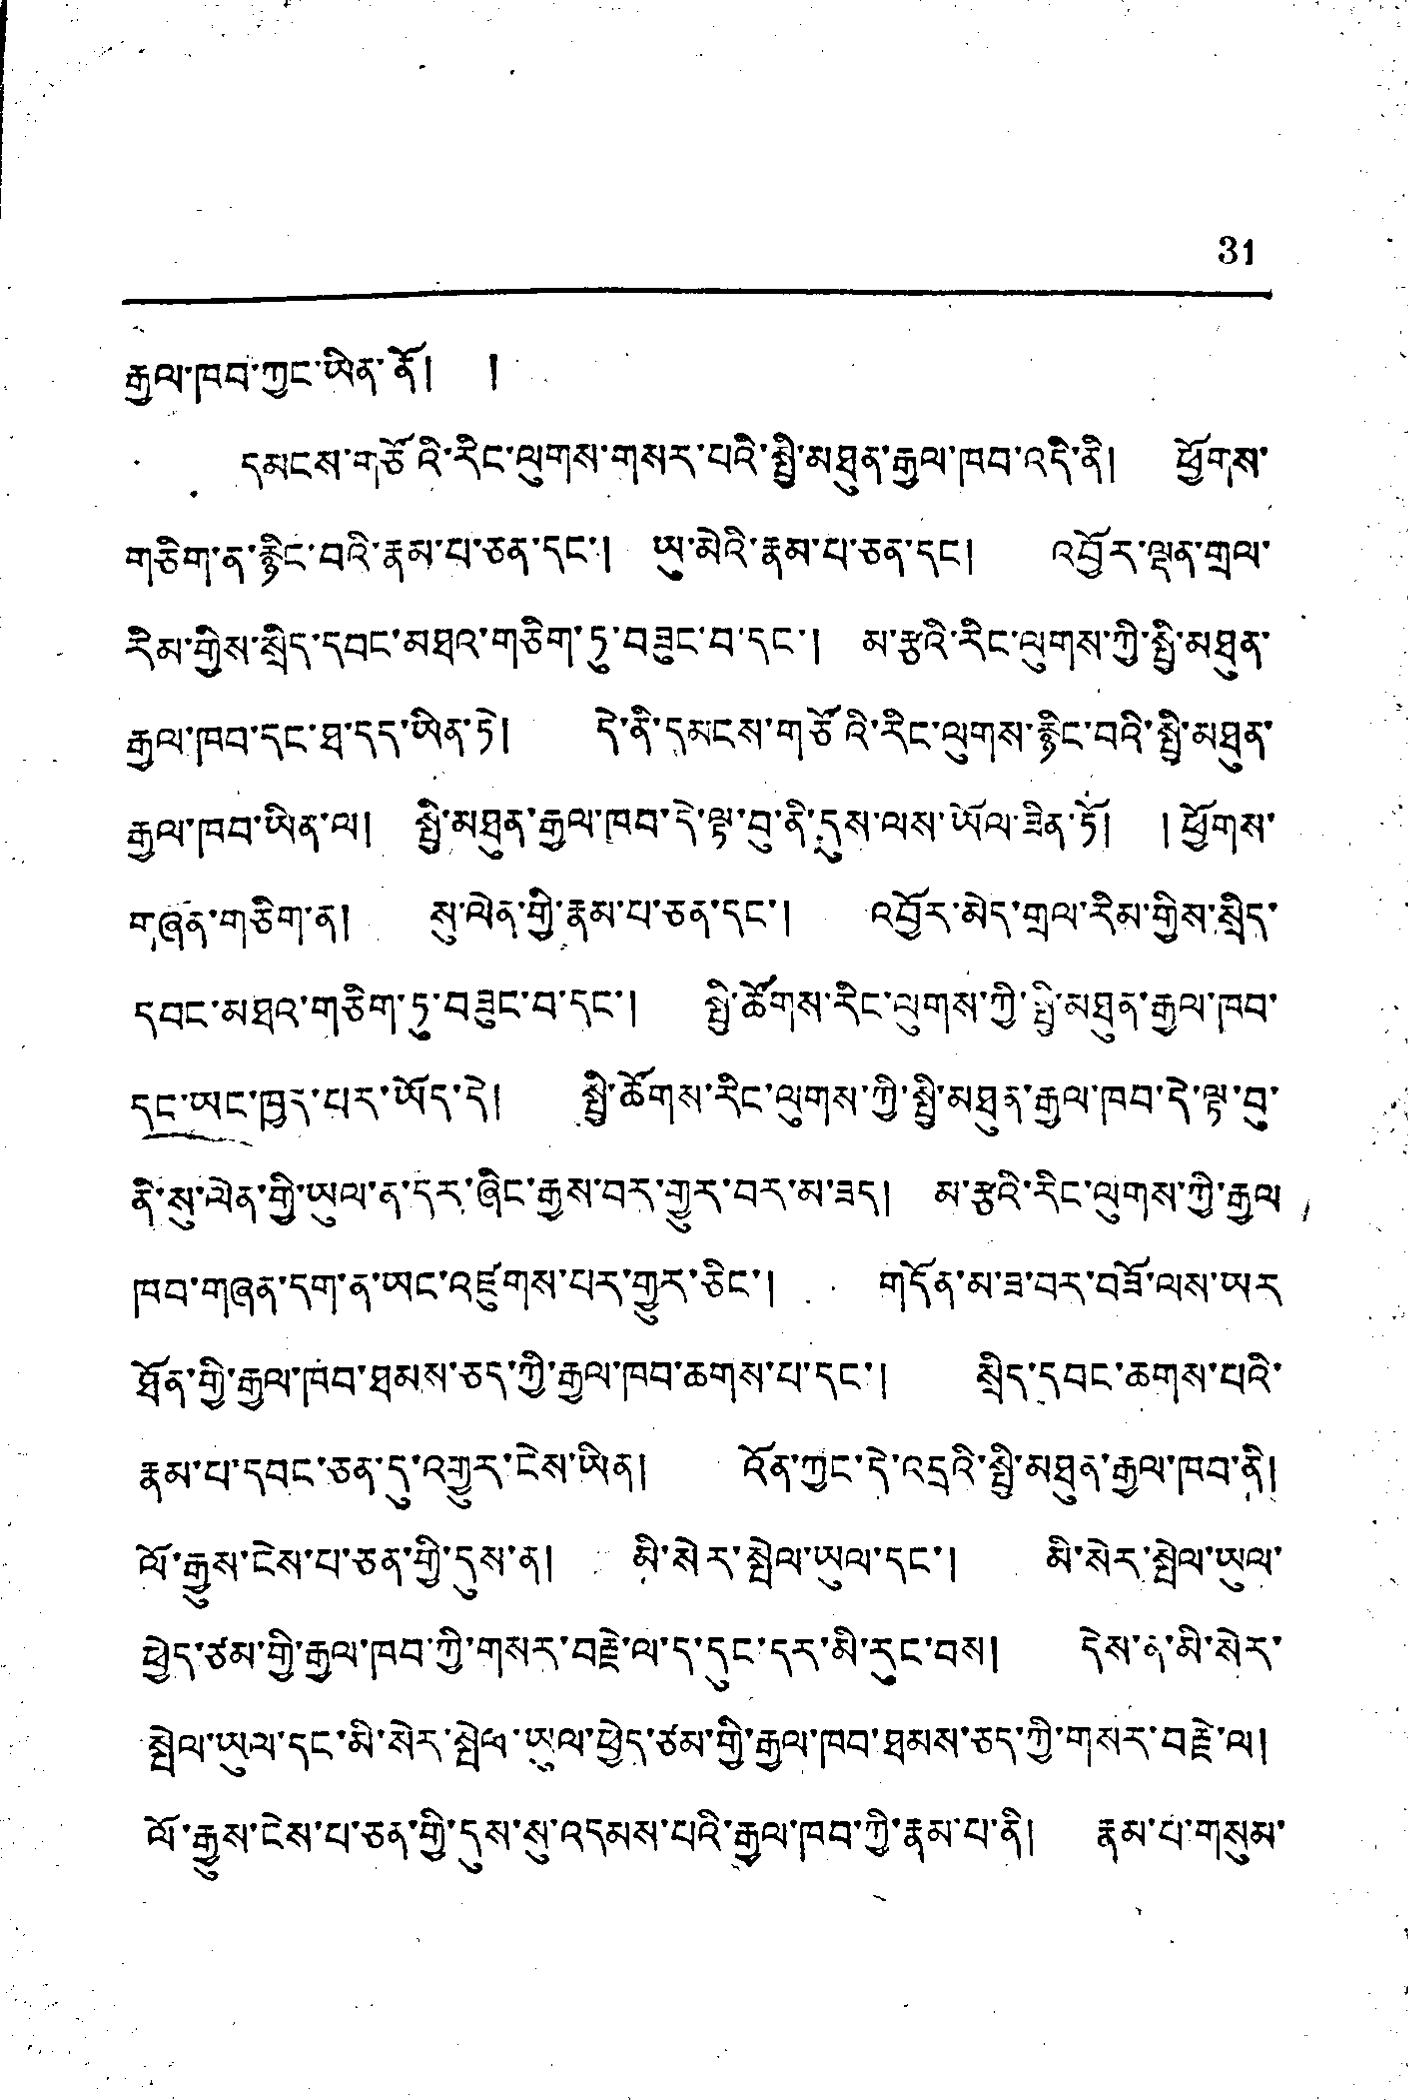31
རྒྱལ་ཁབ་ཀྱང་ཡིན་ནོ། །
དམངས་གཙོའི་རིང་ལུགས་གསར་པའི་སྤྱི་མཐུན་རྒྱལ་ཁབ་འདི་ནི། ཕྱོགས་
གཅིག་ན་རྙིང་བའི་རྣམ་པ་ཅན་དང་། ཡུ་མེའི་རྣམ་པ་ཅན་དང། འབྱོར་ལྡན་གྲལ་
རིམ་གྱིས་སྲིད་དབང་མཐའ་གཅིག་ཏུ་བཟུང་བ་དང་། མ་རྩའི་རིང་ལུགས་ཀྱི་སྤྱི་མཐུན་
རྒྱལ་ཁབ་དང་ཐ་དད་ཡིན་ཏེ། དེ་ནི་དམངས་གཙོའི་རིང་ལུགས་རྙིང་བའི་སྤྱི་མཐུན་
རྒྱལ་ཁབ་ཡིན་ལ། སྤྱི་མཐུན་རྒྱལ་ཁབ་དེ་ལྟ་བུ་ནི་དུས་ལས་ཡོལ་ཟིན་ཏོ། །ཕྱོགས་
གཞན་གཅིག་ན། སུ་ལེན་གྱི་རྣམ་པ་ཅན་དང་། འབྱོར་མེད་གྲལ་རིམ་གྱིས་སྲིད་
དབང་མཐའ་གཅིག་ཏུ་བཟུང་བ་དང་། སྤྱི་ཚོགས་རིང་ལུགས་ཀྱི་སྤྱི་མཐུན་རྒྱལ་ཁབ་
དང་ཡང་ཁྱད་པར་ཡོད་དེ། སྤྱི་ཚོགས་རིང་ལུགས་ཀྱི་སྤྱི་མཐུན་རྒྱལ་ཁབ་དེ་ལྟ་བུ་
ནི་སུ་ལེན་གྱི་ཡུལ་ན་དར་ཞིང་རྒྱས་བར་གྱུར་བར་མ་ཟད། མ་རྩའི་རིང་ལུགས་ཀྱི་རྒྱལ་
ཁབ་གཞན་དག་ན་ཡང་འཛུགས་པར་གྱུར་ཅིང་། གདོན་མ་ཟ་བར་བཟོ་ལས་ཡར
ཐོན་གྱི་རྒྱལ་ཁབ་ཐམས་ཅད་ཀྱི་རྒྱལ་ཁབ་ཆགས་པ་དང་། སྲིད་དབང་ཆགས་པའི་
རྣམ་པ་དབང་ཅན་དུ་འགྱུར་ངེས་ཡིན། འོན་ཀྱང་དེ་འདྲའི་སྤྱི་མཐུན་རྒྱལ་ཁབ་ནི།
ལོ་རྒྱུས་ངེས་པ་ཅན་གྱི་དུས་ན། མི་སེར་སྤེལ་ཡུལ་དང་། མི་སེར་སྤེལ་ཡུལ་
ཕྱེད་ཙམ་གྱི་རྒྱལ་ཁབ་ཀྱི་གསར་བརྗེ་ལ་ད་དུང་དར་མི་རུང་བས། དེས་ན་མི་སེར་
སྤེལ་ཡུལ་དང་མི་སེར་སྤེལ་ཡུལ་ཕྱེད་ཙམ་གྱི་རྒྱལ་ཁབ་ཐམས་ཅད་ཀྱི་གསར་བརྗེ་ལ།
ལོ་རྒྱུས་ངེས་པ་ཅན་གྱི་དུས་སུ་འདམས་པའི་རྒྱལ་ཁབ་ཀྱི་རྣམ་པ་ནི། རྣམ་པ་གསུམ་
